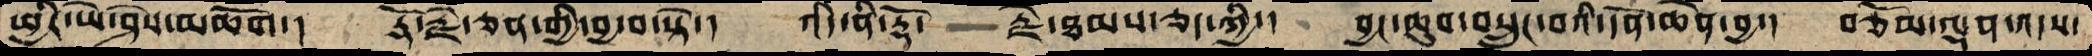ཕྱིར་ཡེ་ཤེས་མཆོག་།   རྡོ་རྗེ་ཅན་གྱི་བྱ་བ་སྟེ་།   འདི་ནི་རྡོ་    རྗེ་ཐམས་ཅད་ཀྱི་།  བྱང་ཆུབ་བསྲུང་བའི་དོན་ཆེན་བྱ་།  བཅོམ་ལྡན་འདས་
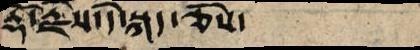རྡོ་རྗེས་དེ་སྐད་ཅེས་
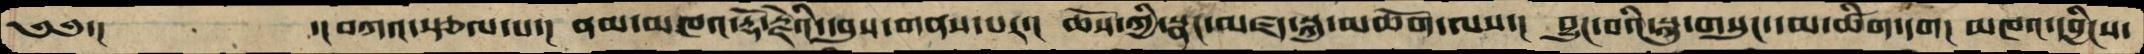༄༅་།         ་།བཀའ་སྩལ་པ་། ནམ་མཁའ་རྡོ་རྗེའི་དབུས་གནས་པར་། ཆོས་ཀྱི་སྣང་མཛད་སྐུ་མཆོག་ལས་།  བྱུང་བའི་སྐུ་གསུང་དམ་ཚིག་དག། མཁའ་དབྱིངས་
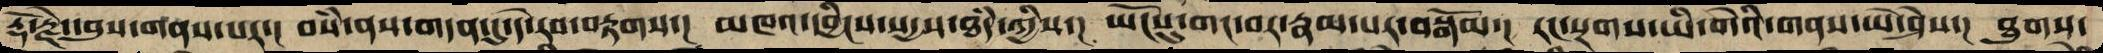རྡོ་རྗེ་དབུས་གནས་པར་། བསཾ་ནས་གདན་དུ་དེ་རབ་བརྟགས་།  མཁའ་དབྱིངས་སདྱས་ཐཾད་ཀྱིས་། ཡོངསུ་གང་བར་རྣམ་པར་བསྒོམ་། རང་སྔགས་ཡི་གེའི་གནས་ཡེ་ཤེས་།  ཐུགས་
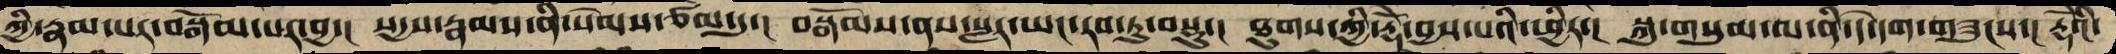ཀྱི་རྣམ་པར་བསྒོམ་པར་བྱ་། སདྱས་རྣམས་ནི་སེམས་ཙམ་དུ་།  བསྒོམས་ནས་སླར་ཡང་རབ་ཏུ་བསྡུ་།  ཐུགས་ཀྱི་རྡོེ་བྱས་པའི་ཕྱིར་།  སྐུ་གསུམ་ལ་ནི་དེ་དག་གཟུངས་། རྡོེའི་
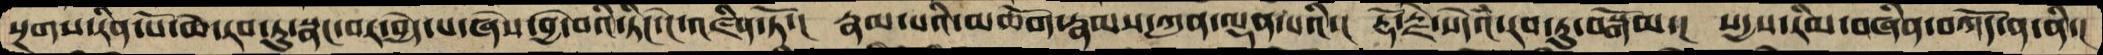སྔགས་རིན་པོ་ཆེ་རབ་ཏུ་སྣང་བར་བྱེད་པ་ཞེས་བྱེ་བའི་ཏིང་ངེ་འཛིན་ཏོ་།  རྣམ་པའི་མཆོག་རྣམས་ཀུན་ལྡན་པའི་།  རྡོ་རྗེ་སེདའཾ་རབ་ཏུ་བསྒོམ་།  སདྱས་རིམ་བཞིན་བཀོད་ན་ནི་།
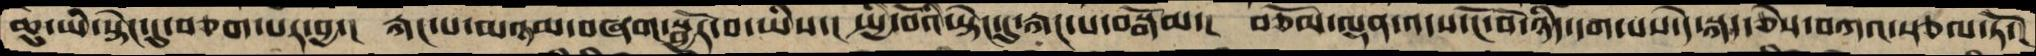ཆུ་ཡི་སྟེང་དུ་བཅག་པར་བྱ་།  རྐང་པ་མཉམ་བཞག་སྦྱོར་བ་ཡིས་། སྤྱི་བོའི་སྟེང་དུ་རྐང་པ་བསྒོམ་།  བཅོམ་ལྡན་འདས་ངོ་བོ་ཉིད་དག་པས་དེ་སྐད་ཅེས་བཀའ་སྩལ་ཏོ་།
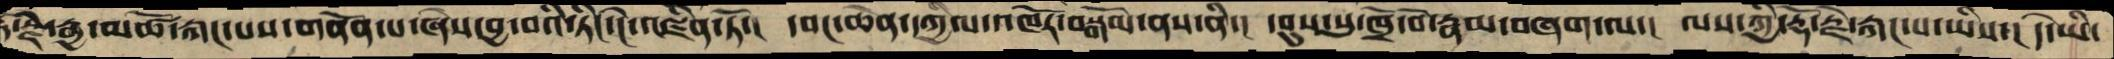རྡོ་རྗེ་རྒྱ་མཚོ་རྐང་པས་གནོན་པ་ཞེས་བྱ་བའི་ཏིང་ངེ་འཛིན་ཏོ་། དབང་ཆེན་དཀྱིལ་འཁོར་བསྒོམ་ནས་ནི་། དབུས་སུ་ཁྲོ་བོ་རྣམ་བཞག་ལ་། ལས་ཀྱི་རྡོ་རྗེ་རྐང་པ་ཡིས་། དེ་ཡི་
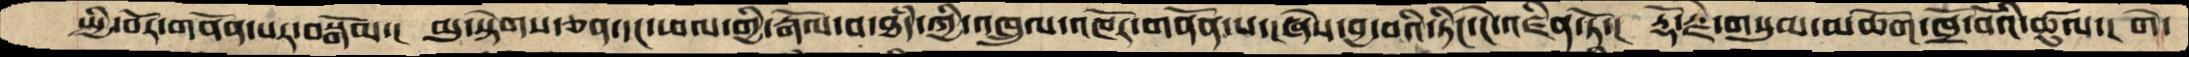སྤྱི་བོར་གནོན་པར་བསྒོམ་། མུ་སྟེགས་ཅན་དང་ཕལ་གྱི་རྒོལ་བ་ཐཾད་ཀྱི་འཁྲུལ་འཁོར་གནོན་པ་ཞེས་བྱ་བའི་ཏིང་ངེ་འཛིན་ཏོ་།  རྡོ་རྗེ་གསུམ་མཆོག་ཁྲོ་བོའི་ཚུལ་། གེ་
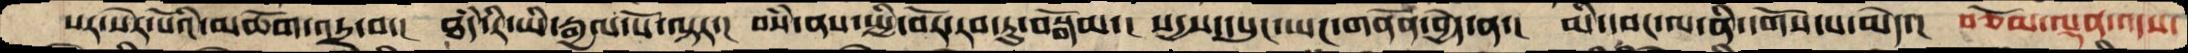སར་སེར་པོའི་མཆོག་འདྲ་བ་།  ཐཾད་རི་ཡི་རྒྱལ་པོ་ལྟར་།  བསཾ་ནས་སྤྱི་བོར་རབ་ཏུ་བསྒོམ་། སདྱས་དཔུང་ཡང་གནོན་བྱེད་ན་།  མི་དབང་ལ་ནི་དགོས་པ་མེད་།  བཅོམ་ལྡན་འདས་
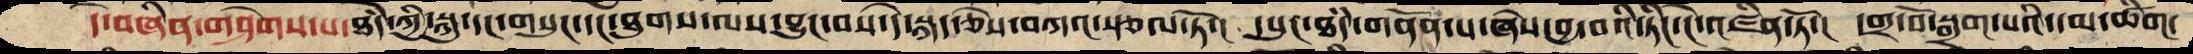དེ་བཞིན་གཤེགས་པ་ཐཾད་ཀྱི་སྐུ་དང་གསུང་དང་ཐུགས་ལས་བྱུང་བས་དེ་སྐད་ཅེས་བཀའ་སྩལ་ཏོ་། དཔུང་ཐཾད་གནོན་པ་ཞེས་བྱ་བའི་ཏིང་ངེ་འཛིན་ཏོ་།  དགྲ་བོ་སྒྲག་པའི་དམ་ཚིག་
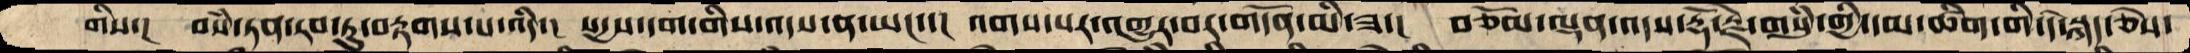གིས་།  བསཾ་ཏན་རབ་ཏུ་བརྟགས་པ་འདི་། སདྱས་དག་གིས་འདས་ན་ཡང་་།  འགས་པར་འགྱུར་བར་གདོན་མི་ཟ་།  བཅོམ་ལྡན་འདས་རྡོ་རྗེ་གསུཾ་གྱི་དམ་ཚིག་གི་དེ་སྐད་ཅེས་
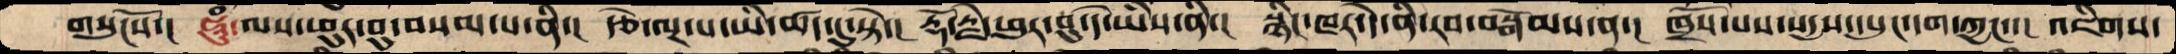གསུངསོ་།  ཧཱུཾ་ལས་ཕུར་བུ་བསམ་པ་ནི་། རྩེ་ལྔ་པ་ཡི་ཚད་དུ་སྟེ་། རྡོ་རྗེ་ཕུར་བུ་དེ་ཡིས་ནི་།  སྙིང་ཁར་དེ་ནི་རབ་བསྒོམས་ན་།  ཁྲོས་པས་སདྱས་དཔུང་དག་ཀྱང་་།  འཇིགས་
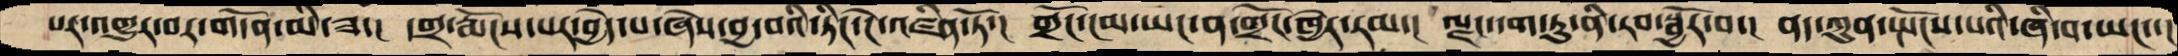པར་འགྱུར་བར་གདོན་མི་ཟ་། དགྲ་རྨོངས་པར་བྱེད་པ་ཞེས་བྱ་བའི་ཏིང་ངེ་འཛིན་ཏོ་།  གྲོང་ངམ་ཡང་ན་གྲོང་ཁྱེར་རམ་།  ལྗང་དག་ཏུ་ནི་རབ་སྦྱོར་བ་། ནད་ཀུན་སྤོངས་པའི་ཞི་བ་ཡང་་།
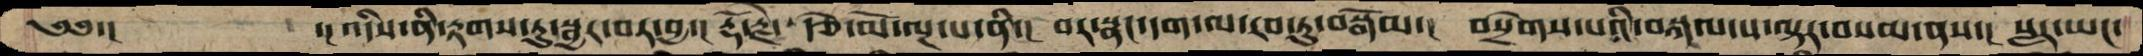༄༅་།         ་།འདིས་ནི་རྟགས་ཏུ་སྦྱར་བར་བྱ་། རྡོ་རྗེ་ རྩེ་མོ་ལྔ་པ་ནི་། བར་སྣང་དག་ལ་རབ་ཏུ་བསྒོམ་། བསྲེགས་པའི་བསྐལ་པ་ལྟར་བསམ་ནས་། སླར་ཡང་
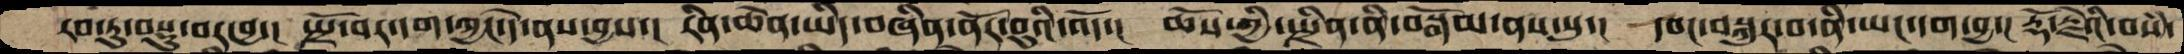རབ་ཏུ་བསྡུ་བར་བྱ་། སྤྲོ་བར་དག་ཀྱང་དེ་ནས་བྱས་། རིན་ཆེན་ཡིད་བཞིན་ནོར་བུའི་འོད་།  ཆོས་ཀྱི་སྤྲིན་ནི་བསྒོམ་ནས་སུ་།  དབང་བསྐུར་བ་ནི་ཡང་དག་བྱ་། རྡོ་རྗེའི་བསཾ་
